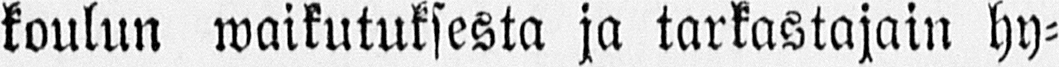koulun waikutuksesta ja tarkastajain hy-
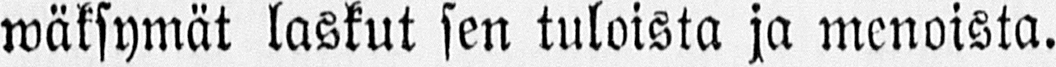wäksymät laskut sen tuloista ja menoista.
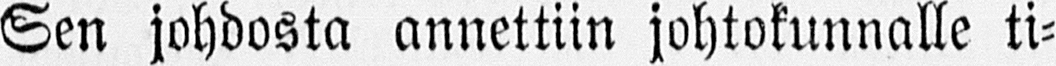Sen johdosta annettiin johtokunnalle ti-
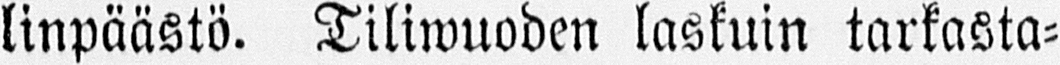linpäästö. Tiliwuoden laskuin tarkasta-
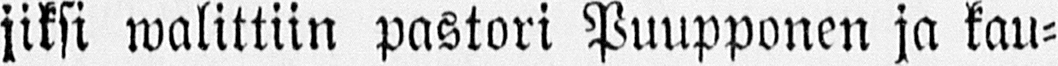jiksi walittiin pastori Puupponen ja kau-
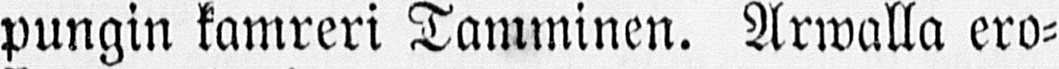pungin kamreri Tamminen. Arwalla ero-
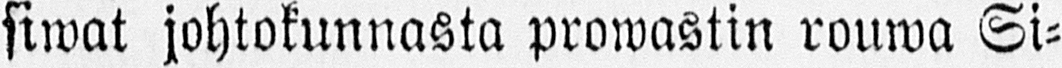siwat johtokunnasta prowastin rouwa Si-
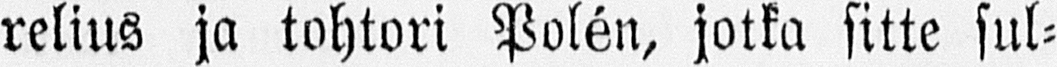relius ja tohtori Polén, jotka sitte sul-
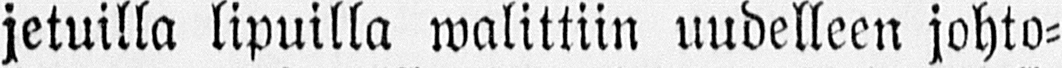jetuilla lipuilla walittiin uudelleen johto-
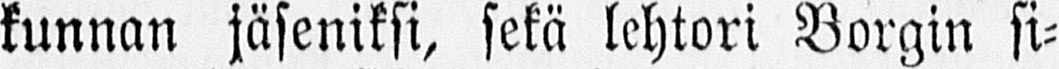kunnan jäseniksi, sekä lehtori Borgin si-
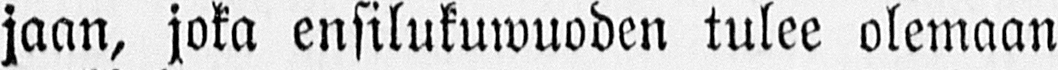jaan, joka ensilukuwuoden tulee olemaan
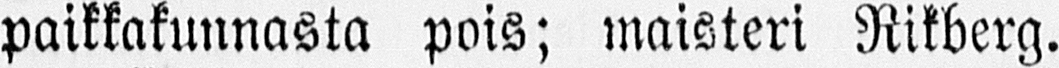paikkakunnasta pois; maisteri Rikberg.
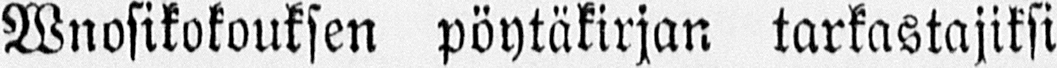Wnosikokouksen pöytäkirjan tarkastajiksi
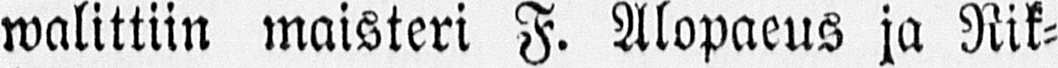walittiin maisteri F. Alopaeus ja Rik-
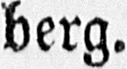berg.
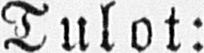Tulot:
